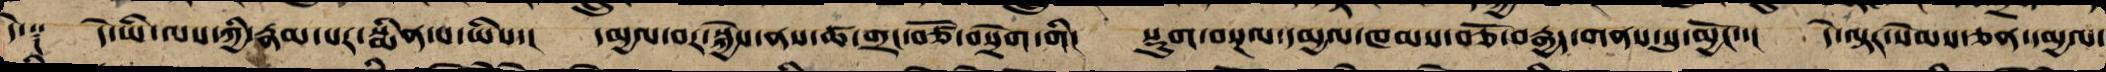དེ༑ དེ་ཡི་ལས་ཀྱི་རྣམ་པར་སྨིན་པ་ཡིས་། དམྱལ་བར་སྐྱེས་པས་ཚ་གྲང་བཙོ་བསྲེག་གི་། སྡུག་བསྔལ་དམྱལ་ཁམས་བཅོ་བརྒྱད་གནས་སུ་མྱོང་་། དེ་ལྟར་སེམས་ཅན་དམྱལ་
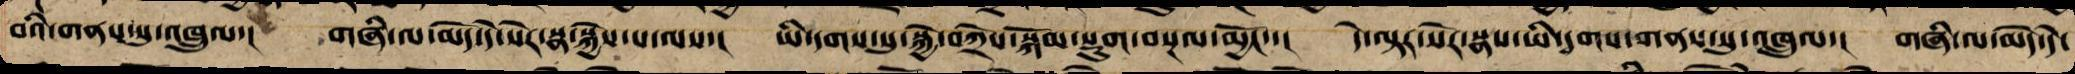བའི་གནས་སུ་འཁྲུལ་། གཞི་ལ་མེད་དེ་སེར་སྣ་སྐྱེས་པ་ལས་། ཡི་དྭགས་སུ་སྐྱེས་བཀྲེས་སྐོམ་སྡུག་བསྔལ་མྱོང་་། དེ་ལྟར་སེར་སྣས་ཡི་དྭགས་གནས་སུ་འཁྲུལ་། གཞི་ལ་མེད་དེ་
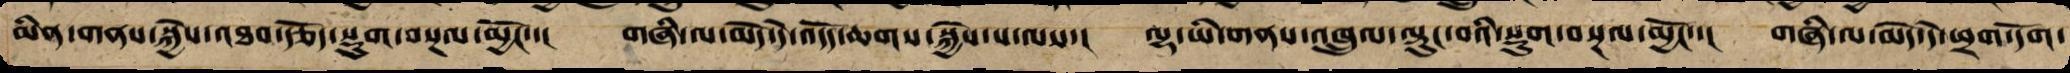མིན་གནས་སྐྱེས་འཐབ་རྩོད་སྡུག་བསྔལ་མྱོང་་། གཞི་ལ་མེད་དེ་འདོད་ཆགས་སྐྱེས་པ་ལས་། ལྷ་ཡི་གནས་འཁྲུལ་ལྟུང་བའི་སྡུག་བསྔལ་མྱོང་་། གཞི་ལ་མེད་དེ་ཕྲག་དོག་
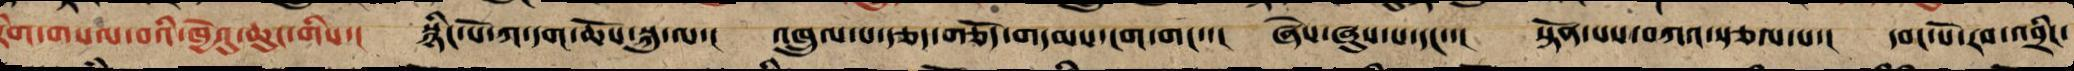རིག་གསལ་བའི་ཁྱེའུ་ཆུང་གིས་། སྙིང་པོ་ཀ་དག་ཆོས་སྐུ་ལ་། འཁྲུལ་པ་རྩད་གཅོད་གདམས་པ་གང་་། ཞེས་ཞུས་པ་དང་་། སྟོན་པས་འཁོར་ལ་བཀའ་སྩལ་པ་། དབང་པོ་རབ་འབྲིང་
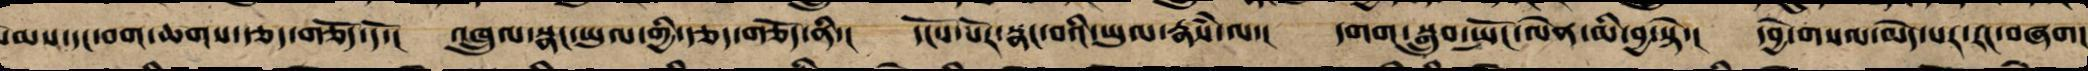སེམས་དང་བག་ཆགས་རྩད་གཅོད་དོ་། འཁྲུལ་སྣང་ཡུལ་གྱི་རྩད་གཅོད་ནི་། དངོས་པོར་སྣང་བའི་ཡུལ་རྣཾས་ལ་། དགག་བསྒྲུབ་སྤོང་ལེན་མི་བྱ་སྟེ་། དབྱེ་བསལ་མེད་པར་རང་བཞག།
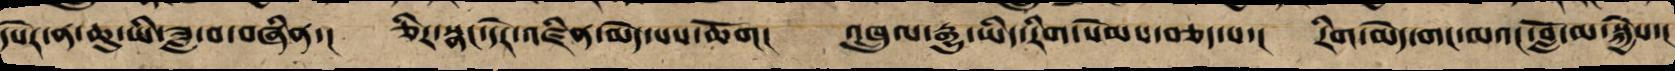དཔེར་ན་ཆུ་ཡི་ཟླ་བ་བཞིན་། ཅིར་སྣང་དེར་འཛིན་མེད་པས་ཆོག། འཁྲུལ་རྒྱུ་ཡིད་རིག་སེམས་བཅད་པ་། རིག་མེད་གང་ལའང་བློ་མ་སྐྱེས་།
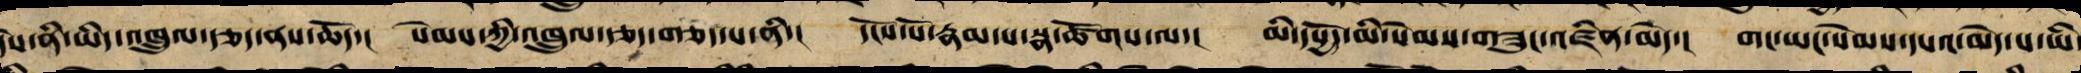དེས་ནི་ཡེངས་འཁྲུལ་རྩད་ནས་ཆོད་། སེམས་ཀྱི་འཁྲུལ་རྩད་བཅད་པ་ནི་། དངོས་པོ་རྣམ་པ་སྣ་ཚོགས་ལ་། མི་དཔྱོད་མི་སེམས་གཟུང་འཛིན་མེད་། གང་ཡང་སེམས་པ་མེད་པ་ཡི
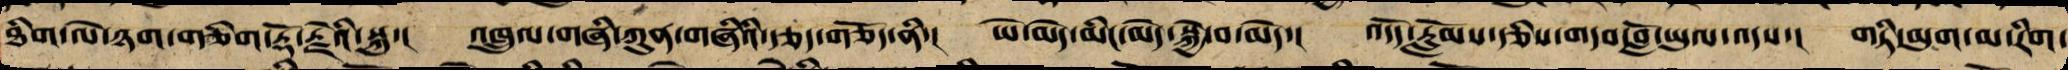ཐིག་ལེ་ཉག་གཅིག་རྡོ་རྗེའི་སྐུ་། འཁྲུལ་གཞི་ཀུན་གཞིའི་རྩད་གཅོད་ནི་། ཡེ་མེད་མིང་མེད་སྐྱེ་བ་མེད་། འདོད་རློམས་རྩིས་གདབ་བློ་ཡུལ་འདས་། གཏི་མུག་མ་རིག་
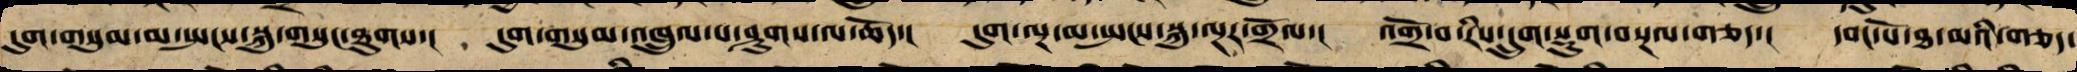དུག་གསུམ་མ་སྤངས་སྐུ་གསུང་ཐུགས་། དུག་གསུམ་འཁྲུལ་པ་ཤུགས་ལ་ཆོད་། དུག་ལྔ་མ་སྤངས་སྐུ་ལྔར་གྲོལ་། འགྲོ་བ་རིགས་དྲུག་སྡུག་བསྔལ་བཅད་། དབང་པོ་ཐ་མའི་བཅད་
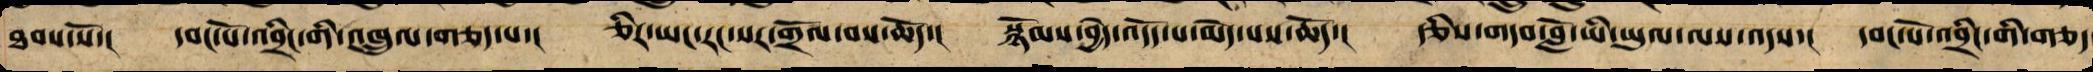ཐབས་སོ་། དབང་པོ་འབྲིང་གི་འཁྲུལ་བཅད་པ་། ཅིར་ཡང་རང་སར་གྲོལ་བས་ཆོད་། སྙོམས་བྱེད་འདོད་པ་མེད་པས་ཆོད་། རྩིས་གདབ་བློ་ཡི་ཡུལ་ལས་འདས་། དབང་པོ་འབྲིང་གི་གཅད
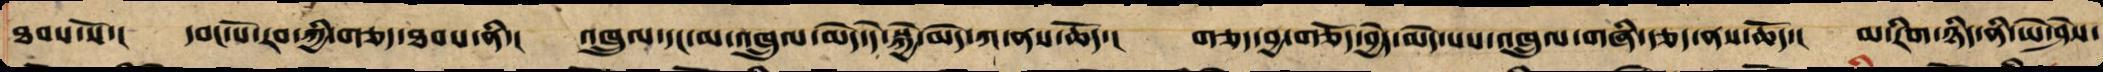ཐབས་སོ་། དབང་པོ་རབ་ཀྱིས་བཅད་ཐབས་ནི་། འཁྲུལ་དང་མ་འཁྲུལ་མེད་དེ་སྐྱེ་མེད་ཀ་ནས་ཆོད་། གཅོད་བྱ་གཅོད་བྱེད་མེད་པས་འཁྲུལ་གཞི་རྩད་ནས་ཆོད་། མ་རིག་ཉིད་ནི་ཡེ་ཤེས་གསལ་
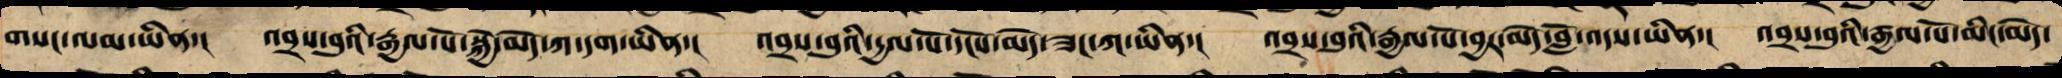གསང་ལམ་ཡིན་། འབྲས་བུའི་རྒྱལ་པོ་སྐྱེ་མེད་ཀ་དག་ཡིན་། འབྲས་བུའི་རྒྱལ་པོ་དངོས་མེད་ཟང་ཀ་ཡིན་། འབྲས་བུའི་རྒྱལ་པོ་བྱར་མེད་བློ་འདས་ཡིན་། འབྲས་བུའི་རྒྱལ་པོ་མིང་མེད་
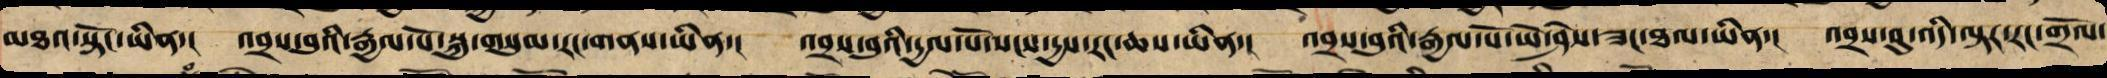མཐའ་སྟོང་ཡིན་། འབྲས་བུའི་རྒྱལ་པོ་སྐུ་གསུམ་རང་གནས་ཡིན་། འབྲས་བུའི་དྱལ་པོ་སངས་དྱས་རང་ཆས་ཡིན་། འབྲས་བུའི་རྒྱལ་པོ་ཡེ་ཤེས་ཟང་ཐལ་ཡིན་། འབྲས་བུ་འདི་ལྟར་རང་གྲོལ་
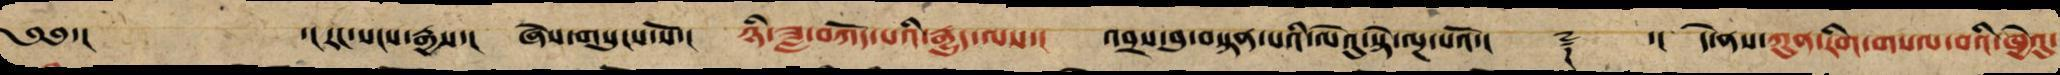༄༅་། ་།རང་སངས་རྒྱས་། ཞེས་གསུངས་སོ་། ཉི་ཟླ་བཀོད་པའི་རྒྱུད་ལས་། འབྲས་བུ་བསྟན་པའི་ལེའུ་སྟེ་ལྔ་པའོ་།། ༈ ་།། དེ་ནས་ཀུན་རིག་གསལ་བའི་ཁྱེའུ་
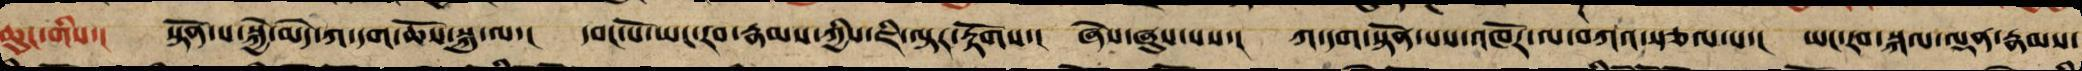ཆུང་གིས་། སྟོན་པ་སྐྱེ་མེད་ཀ་དག་ཆོས་སྐུ་ལ་། དབང་པོ་ཡང་རབ་རྣམས་ཀྱིས་ཇི་ལྟར་རྟོགས་། ཞེས་ཞུས་པས་། ཀ་དག་སྟོན་པས་འཁོར་ལ་བཀའ་སྩལ་པ་། ཡང་རབ་སྐལ་ལྡན་རྣམས་
